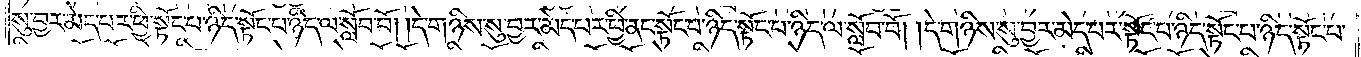སུ་བྱར་མེད་པར་ཕྱི་སྟོང་པ་ཉིད་སྟོང་པ་ཉིད་ལ་སློབ་བོ། །དེ་གཉིས་སུ་བྱར་མེད་པར་ཕྱི་ནང་སྟོང་པ་ཉིད་སྟོང་པ་ཉིད་ལ་སློབ་བོ། །དེ་གཉིས་སུ་བྱར་མེད་པར་སྟོང་པ་ཉིད་སྟོང་པ་
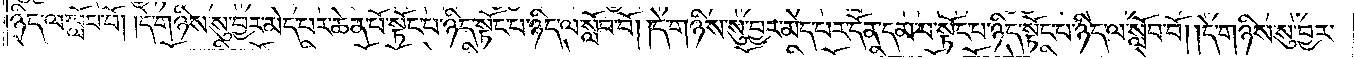ཉིད་ལ་སློབ་བོ། །དེ་གཉིས་སུ་བྱར་མེད་པར་ཆེན་པོ་སྟོང་པ་ཉིད་སྟོང་པ་ཉིད་ལ་སློབ་བོ། །དེ་གཉིས་སུ་བྱར་མེད་པར་དོན་དམ་པ་སྟོང་པ་ཉིད་སྟོང་པ་ཉིད་ལ་སློབ་བོ། །དེ་གཉིས་སུ་བྱར་
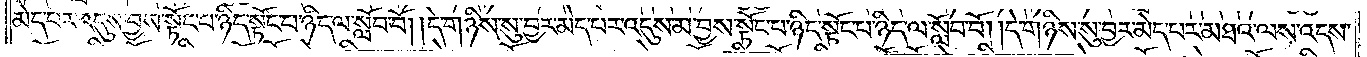མེད་པར་འདུས་བྱས་སྟོང་པ་ཉིད་སྟོང་པ་ཉིད་ལ་སློབ་བོ། །དེ་གཉིས་སུ་བྱར་མེད་པར་འདུས་མ་བྱས་སྟོང་པ་ཉིད་སྟོང་པ་ཉིད་ལ་སློབ་བོ། །དེ་གཉིས་སུ་བྱར་མེད་པར་མཐའ་ལས་འདས་
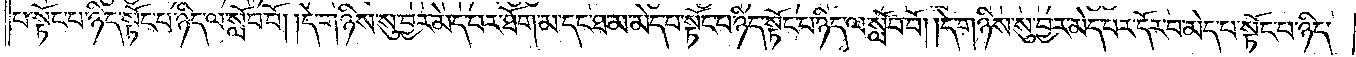པ་སྟོང་པ་ཉིད་སྟོང་པ་ཉིད་ལ་སློབ་བོ། །དེ་གཉིས་སུ་བྱར་མེད་པར་ཐོག་མ་དང་ཐ་མ་མེད་པ་སྟོང་པ་ཉིད་སྟོང་པ་ཉིད་ལ་སློབ་བོ། །དེ་གཉིས་སུ་བྱར་མེད་པར་དོར་བ་མེད་པ་སྟོང་པ་ཉིད་
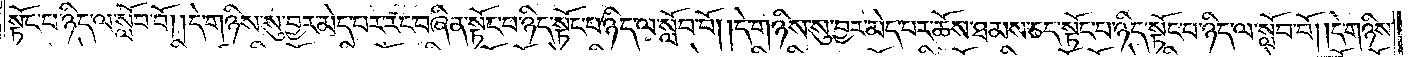སྟོང་པ་ཉིད་ལ་སློབ་བོ། །དེ་གཉིས་སུ་བྱར་མེད་པར་རང་བཞིན་སྟོང་པ་ཉིད་སྟོང་པ་ཉིད་ལ་སློབ་བོ། །དེ་གཉིས་སུ་བྱར་མེད་པར་ཆོས་ཐམས་ཅད་སྟོང་པ་ཉིད་སྟོང་པ་ཉིད་ལ་སློབ་བོ། །དེ་གཉིས་
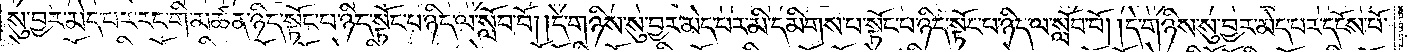སུ་བྱར་མེད་པར་རང་གི་མཚན་ཉིད་སྟོང་པ་ཉིད་སྟོང་པ་ཉིད་ལ་སློབ་བོ། །དེ་གཉིས་སུ་བྱར་མེད་པར་མི་དམིགས་པ་སྟོང་པ་ཉིད་སྟོང་པ་ཉིད་ལ་སློབ་བོ། །དེ་གཉིས་སུ་བྱར་མེད་པར་དངོས་པོ་
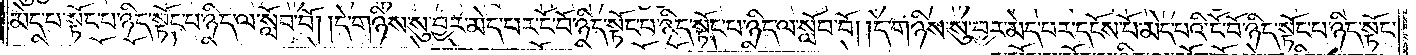མེད་པ་སྟོང་པ་ཉིད་སྟོང་པ་ཉིད་ལ་སློབ་བོ། །དེ་གཉིས་སུ་བྱར་མེད་པར་ངོ་བོ་ཉིད་སྟོང་པ་ཉིད་སྟོང་པ་ཉིད་ལ་སློབ་བོ། །དེ་གཉིས་སུ་བྱར་མེད་པར་དངོས་པོ་མེད་པའི་ངོ་བོ་ཉིད་སྟོང་པ་ཉིད་སྟོང་
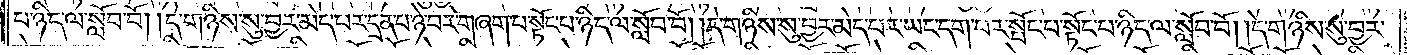པ་ཉིད་ལ་སློབ་བོ། །དེ་གཉིས་སུ་བྱར་མེད་པར་དྲན་པ་ཉེ་བར་གཞག་པ་སྟོང་པ་ཉིད་ལ་སློབ་བོ། །དེ་གཉིས་སུ་བྱར་མེད་པར་ཡང་དག་པར་སྤོང་བ་སྟོང་པ་ཉིད་ལ་སློབ་བོ། །དེ་གཉིས་སུ་བྱར་
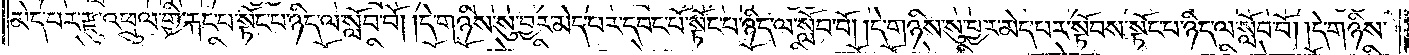མེད་པར་རྫུ་འཕྲུལ་གྱི་རྐང་པ་སྟོང་པ་ཉིད་ལ་སློབ་བོ། །དེ་གཉིས་སུ་བྱར་མེད་པར་དབང་པོ་སྟོང་པ་ཉིད་ལ་སློབ་བོ། །དེ་གཉིས་སུ་བྱར་མེད་པར་སྟོབས་སྟོང་པ་ཉིད་ལ་སློབ་བོ། །དེ་གཉིས་
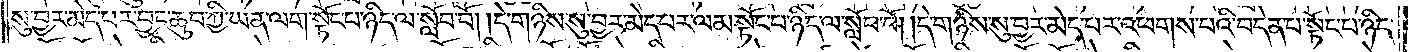སུ་བྱར་མེད་པར་བྱང་ཆུབ་ཀྱི་ཡན་ལག་སྟོང་པ་ཉིད་ལ་སློབ་བོ། །དེ་གཉིས་སུ་བྱར་མེད་པར་ལམ་སྟོང་པ་ཉིད་ལ་སློབ་བོ། །དེ་གཉིས་སུ་བྱར་མེད་པར་འཕགས་པའི་བདེན་པ་སྟོང་པ་ཉིད་
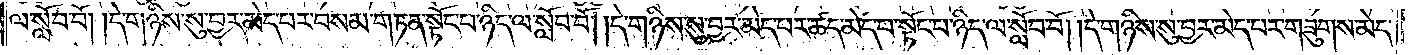ལ་སློབ་བོ། །དེ་གཉིས་སུ་བྱར་མེད་པར་བསམ་གཏན་སྟོང་པ་ཉིད་ལ་སློབ་བོ། །དེ་གཉིས་སུ་བྱར་མེད་པར་ཚད་མེད་པ་སྟོང་པ་ཉིད་ལ་སློབ་བོ། །དེ་གཉིས་སུ་བྱར་མེད་པར་གཟུགས་མེད་
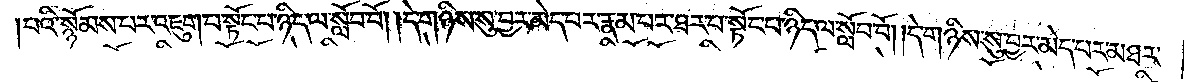པའི་སྙོམས་པར་འཇུག་པ་སྟོང་པ་ཉིད་ལ་སློབ་བོ། །དེ་གཉིས་སུ་བྱར་མེད་པར་རྣམ་པར་ཐར་པ་སྟོང་པ་ཉིད་ལ་སློབ་བོ། །དེ་གཉིས་སུ་བྱར་མེད་པར་མཐར་
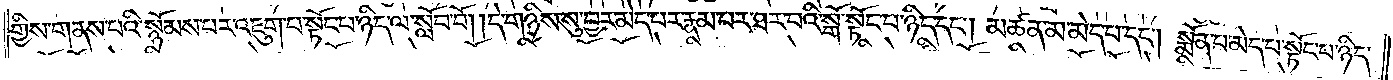གྱིས་གནས་པའི་སྙོམས་པར་འཇུག་པ་སྟོང་པ་ཉིད་ལ་སློབ་བོ། །དེ་གཉིས་སུ་བྱར་མེད་པར་རྣམ་པར་ཐར་པའི་སྒོ་སྟོང་པ་ཉིད་དང༌། །མཚན་མ་མེད་པ་དང༌། སྨོན་པ་མེད་པ་སྟོང་པ་ཉིད་
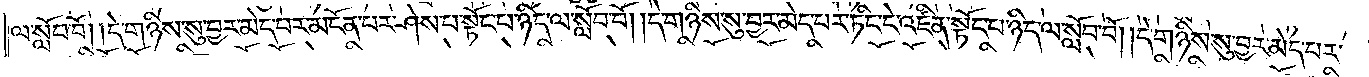ལ་སློབ་བོ། །དེ་གཉིས་སུ་བྱར་མེད་པར་མངོན་པར་ཤེས་པ་སྟོང་པ་ཉིད་ལ་སློབ་བོ། །དེ་གཉིས་སུ་བྱར་མེད་པར་ཏིང་ངེ་འཛིན་སྟོང་པ་ཉིད་ལ་སློབ་བོ། །དེ་གཉིས་སུ་བྱར་མེད་པར་
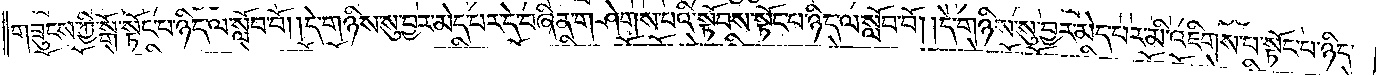གཟུངས་ཀྱི་སྒོ་སྟོང་པ་ཉིད་ལ་སློབ་བོ། །དེ་གཉིས་སུ་བྱར་མེད་པར་དེ་བཞིན་གཤེགས་པའི་སྟོབས་སྟོང་པ་ཉིད་ལ་སློབ་བོ། །དེ་གཉིས་སུ་བྱར་མེད་པར་མི་འཇིགས་པ་སྟོང་པ་ཉིད་
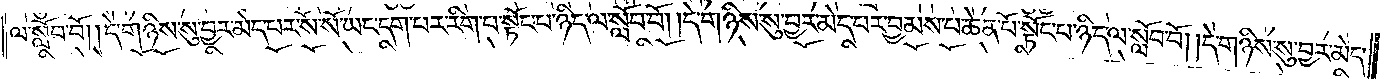ལ་སློབ་བོ། །དེ་གཉིས་སུ་བྱར་མེད་པར་སོ་སོ་ཡང་དག་པར་རིག་པ་སྟོང་པ་ཉིད་ལ་སློབ་བོ། །དེ་གཉིས་སུ་བྱར་མེད་པར་བྱམས་པ་ཆེན་པོ་སྟོང་པ་ཉིད་ལ་སློབ་བོ། །དེ་གཉིས་སུ་བྱར་མེད་
